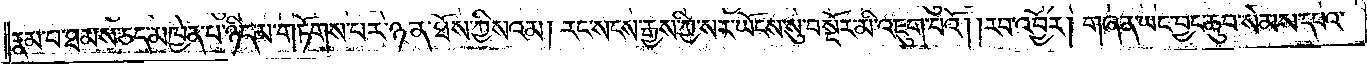རྣམ་པ་ཐམས་ཅད་མཁྱེན་པ་ཉིད་མ་གཏོགས་པར་ཉན་ཐོས་ཀྱི་སའམ། རང་སངས་རྒྱས་ཀྱི་སར་ཡོངས་སུ་བསྔོར་མི་འཇུག་པའོ། །རབ་འབྱོར། གཞན་ཡང་བྱང་ཆུབ་སེམས་དཔའ་
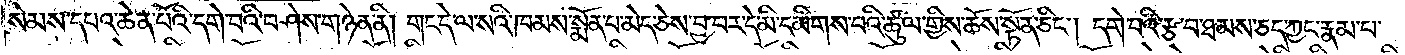སེམས་དཔའ་ཆེན་པོའི་དགེ་བའི་བཤེས་གཉེན་ནི། གང་དེ་ལ་སའི་ཁམས་སྨོན་པ་མེད་ཅེས་བྱ་བར་དེ་མི་དམིགས་པའི་ཚུལ་གྱིས་ཆོས་སྟོན་ཅིང༌། དགེ་བའི་རྩ་བ་ཐམས་ཅད་ཀྱང་རྣམ་པ་
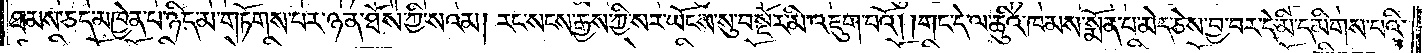ཐམས་ཅད་མཁྱེན་པ་ཉིད་མ་གཏོགས་པར་ཉན་ཐོས་ཀྱི་སའམ། རང་སངས་རྒྱས་ཀྱི་སར་ཡོངས་སུ་བསྔོར་མི་འཇུག་པའོ། །གང་དེ་ལ་ཆུའི་ཁམས་སྨོན་པ་མེད་ཅེས་བྱ་བར་དེ་མི་དམིགས་པའི་
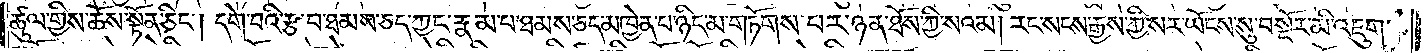ཚུལ་གྱིས་ཆོས་སྟོན་ཅིང༌། དགེ་བའི་རྩ་བ་ཐམས་ཅད་ཀྱང་རྣམ་པ་ཐམས་ཅད་མཁྱེན་པ་ཉིད་མ་གཏོགས་པར་ཉན་ཐོས་ཀྱི་སའམ། རང་སངས་རྒྱས་ཀྱི་སར་ཡོངས་སུ་བསྔོར་མི་འཇུག་
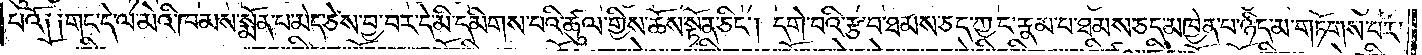པའོ༑ ༑གང་དེ་ལ་མེའི་ཁམས་སྨོན་པ་མེད་ཅེས་བྱ་བར་དེ་མི་དམིགས་པའི་ཚུལ་གྱིས་ཆོས་སྟོན་ཅིང༌། དགེ་བའི་རྩ་བ་ཐམས་ཅད་ཀྱང་རྣམ་པ་ཐམས་ཅད་མཁྱེན་པ་ཉིད་མ་གཏོགས་པར་
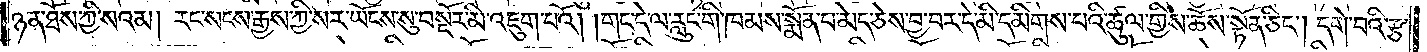ཉན་ཐོས་ཀྱི་སའམ། རང་སངས་རྒྱས་ཀྱི་སར་ཡོངས་སུ་བསྔོར་མི་འཇུག་པའོ། །གང་དེ་ལ་རླུང་གི་ཁམས་སྨོན་པ་མེད་ཅིང་བྱ་བར་དེ་མི་དམིགས་པའི་ཚུལ་གྱིས་ཆོས་སྟོན་ཅིང༌། དགེ་བའི་རྩ་
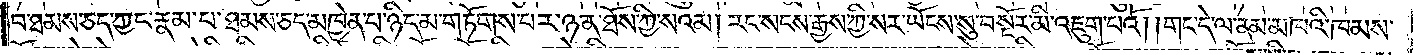བ་ཐམས་ཅད་ཀྱང་རྣམ་པ་ཐམས་ཅད་མཁྱེན་པ་ཉིད་མ་གཏོགས་པར་ཉན་ཐོས་ཀྱི་སའམ། རང་སངས་རྒྱས་ཀྱི་སར་ཡོངས་སུ་བསྔོར་མི་འཇུག་པའོ། །གང་དེ་ལ་ནམ་མཁའི་ཁམས་
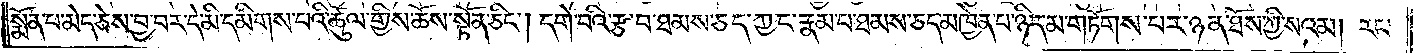སྨོན་པ་མེད་ཅེས་བྱ་བར་དེ་མི་དམིགས་པའི་ཚུལ་གྱིས་ཆོས་སྟོན་ཅིང༌། དགེ་བའི་རྩ་བ་ཐམས་ཅད་ཀྱང་རྣམ་པ་ཐམས་ཅད་མཁྱེན་པ་ཉིད་མ་གཏོགས་པར་ཉན་ཐོས་ཀྱི་སའམ། རང་
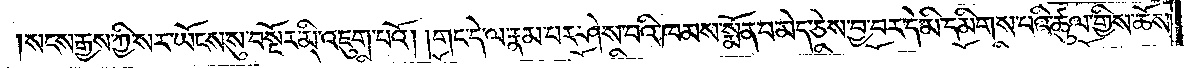སངས་རྒྱས་ཀྱི་སར་ཡོངས་སུ་བསྔོར་མི་འཇུག་པའོ། །གང་དེ་ལ་རྣམ་པར་ཤེས་པའི་ཁམས་སྨོན་པ་མེད་ཅེས་བྱ་བར་དེ་མི་དམིགས་པའི་ཚུལ་གྱིས་ཆོས་
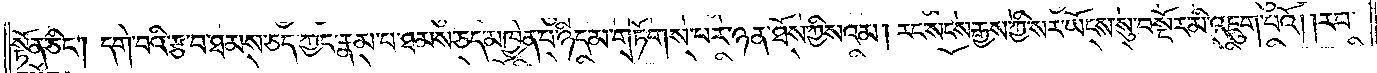སྟོན་ཅིང༌། དགེ་བའི་རྩ་བ་ཐམས་ཅད་ཀྱང་རྣམ་པ་ཐམས་ཅད་མཁྱེན་པ་ཉིད་མ་གཏོགས་པར་ཉན་ཐོས་ཀྱི་སའམ། རང་སངས་རྒྱས་ཀྱི་སར་ཡོངས་སུ་བསྔོར་མི་འཇུག་པའོ། །རབ་
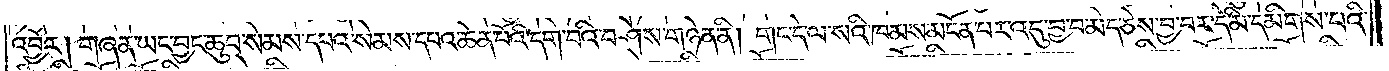འབྱོར། གཞན་ཡང་བྱང་ཆུབ་སེམས་དཔའ་སེམས་དཔའ་ཆེན་པོའི་དགེ་བའི་བཤེས་གཉེན་ནི། གང་དེ་ལ་སའི་ཁམས་མངོན་པར་འདུ་བྱ་བ་མེད་ཅེས་བྱ་བར་དེ་མི་དམིགས་པའི་
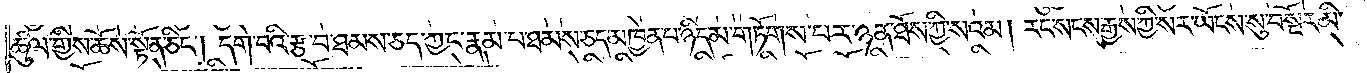ཚུལ་གྱིས་ཆོས་སྟོན་ཅིང༌། དགེ་བའི་རྩ་བ་ཐམས་ཅད་ཀྱང་རྣམ་པ་ཐམས་ཅད་མཁྱེན་པ་ཉིད་མ་གཏོགས་པར་ཉན་ཐོས་ཀྱི་སའམ། རང་སངས་རྒྱས་ཀྱི་སར་ཡོངས་སུ་བསྔོར་མི་
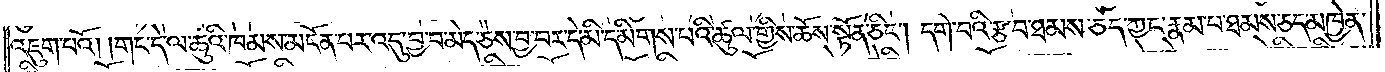འཇུག་པའོ། །གང་དེ་ལ་ཆུའི་ཁམས་མངོན་པར་འདུ་བྱ་བ་མེད་ཅེས་བྱ་བར་དེ་མི་དམིགས་པའི་ཚུལ་གྱིས་ཆོས་སྟོན་ཅིང༌། དགེ་བའི་རྩ་བ་ཐམས་ཅད་ཀྱང་རྣམ་པ་ཐམས་ཅད་མཁྱེན་
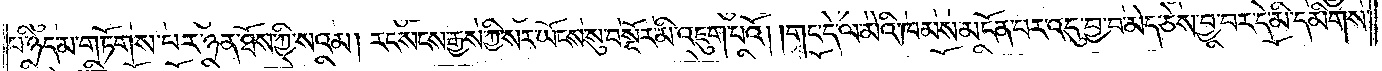པ་ཉིད་མ་གཏོགས་པར་ཉན་ཐོས་ཀྱི་སའམ། རང་སངས་རྒྱས་ཀྱི་སར་ཡོངས་སུ་བསྔོར་མི་འཇུག་པའོ། །གང་དེ་ལ་མེའི་ཁམས་མངོན་པར་འདུ་བྱ་བ་མེད་ཅེས་བྱ་བར་དེ་མི་དམིགས་
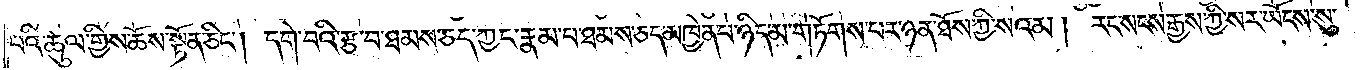པའི་ཚུལ་གྱིས་ཆོས་སྟོན་ཅིང༌། དགེ་བའི་རྩ་བ་ཐམས་ཅད་ཀྱང་རྣམ་པ་ཐམས་ཅད་མཁྱེན་པ་ཉིད་མ་གཏོགས་པར་ཉན་ཐོས་ཀྱི་སའམ། རང་སངས་རྒྱས་ཀྱི་སར་ཡོངས་སུ་
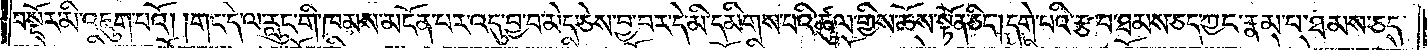བསྔོར་མི་འཇུག་པའོ། །གང་དེ་ལ་རླུང་གི་ཁམས་མངོན་པར་འདུ་བྱ་བ་མེད་ཅེས་བྱ་བར་དེ་མི་དམིགས་པའི་ཚུལ་གྱིས་ཆོས་སྟོན་ཅིང༌། དགེ་པའི་རྩ་བ་ཐམས་ཅད་ཀྱང་རྣམ་པ་ཐམས་ཅད་
